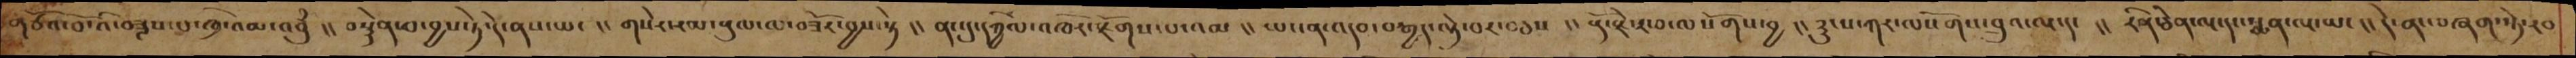གཙོའ་བོ་འི་བཟླས་པ་ཁྲི་འམ་འབུཾ །། བསྙེན་པ་བྱས་ཏེ་དེ་ནས་ཡང །། གསེར་རམ་དངུལ་ལ་བཟོར་བྱས་སྟེ །། ནང་དུ་དཀྱིལ་འཁོར་སྫོགས་པ་འམ །། ཡང་ན་འདབ་བརྒྱད་ལྟེ་བར་བཅས །། རྡོ་རྗེ་ར་བ་ལསོགས་བྱ །། ཟུངས་ཀར་ལསོགས་བྲུའ་ལྔ་དང །། རིན་ཅེན་ལྔ་དང་སྨན་ལྔ་ཡང །། དེ་ནང་བཞག་སྟེ་རབ
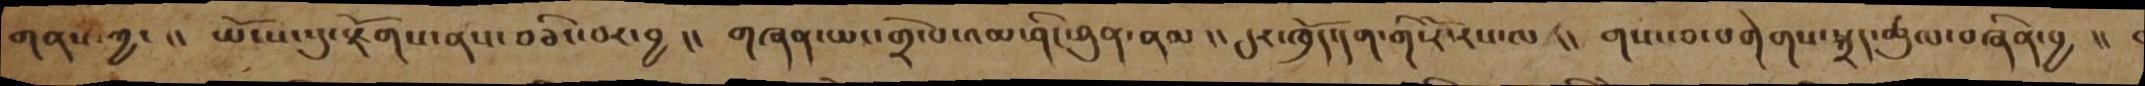གནས་ཀྱང །། ཡོངས་སུ་སྫོགས་ནས་བཅིང་བར་བྱ །། གཞན་ཡང་གྲོལ་འམ་ཤིང་ཐུན་ནམ །། དུར་ཁྲོད་དག་གི་རོ་རས་ལ །། གསང་བ་བགེགས་སྐྲད་ཚུལ་བཞིན་བྱ །།
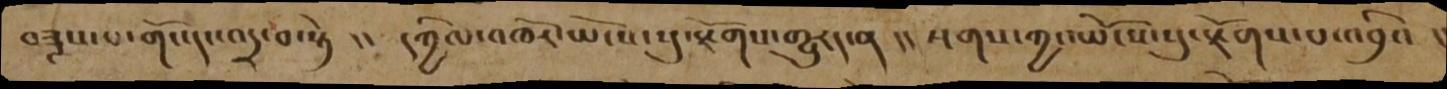བཟླས་པ་གོང་དང་འདྲ་བ་སྟེ། །། དཀྱིལ་འཁོར་ཡོངས་སུ་སྫོགས་གྱུརད་ན །། སྔགས་ཀྱང་ཡོངས་སུ་སྫོགས་པ་འབྲིའ  །
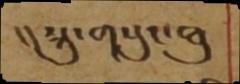།། སྐུ་གསུང་ཐུ
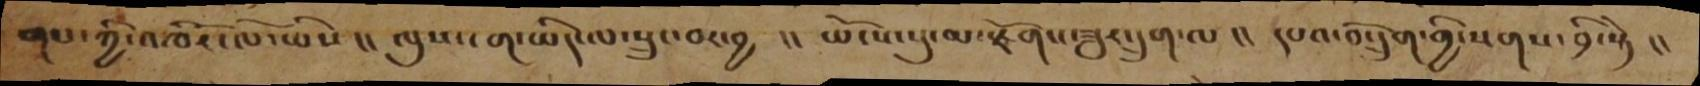གས་ཀྱི་འཁོར་ལོ་ཡིས །། ལུས་ངག་ཡིད་ལ་སྲུང་བར་བྱ  །།  ཡོངས་སུ་མ་རྫོགས་ཟུར་དྲུག་ལ །། དཔའ་བོ་དྲུག་གྱི་སགས་བྲི་སྟེ །།
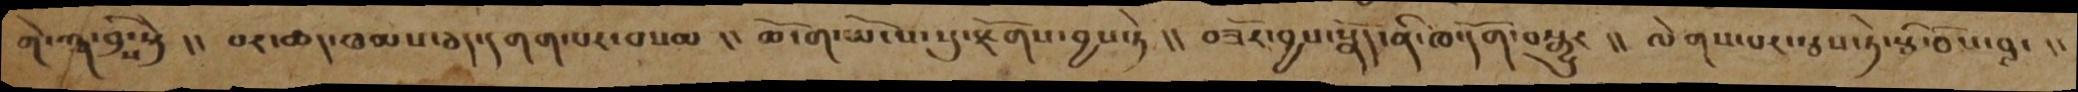གེ་ཀྵ་བྲིས་སྟེ།། བར་ཆད་ཐམས་ཅད་དགག་པར་བསམ།། ཆོ་ག་ཡོངས་སུ་རྫོགས་བྱས་ཏེ།། བཟོར་བྱས་སྣོད་ནི་ཁ་དོག་བསྒྱུར།། ལེགས་པར་སྦས་ཏེ་སྤི་བོས་བླང།།
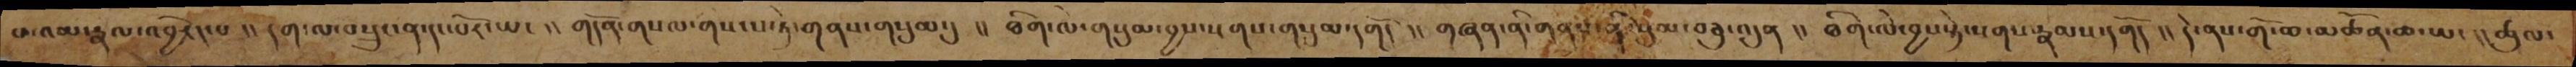པ་འམ་རྣལ་འབྱོརད་པ།།དག་ལ་བསྲུང་ན་དང་པོར་ཡང།།། གདོན་གསལ་གསངས་ཏེ་གནས་གསུམ་དུ།། ཐིག་ལེ་གསུམ་བྱས་སྔགས་གསུམ་དགོད།། གཞན་ནི་གནས་ནི་སུམ་བཅུ་བདུན།། ཐིག་ལེ་བྱས་སྟེ་སྔགས་རྣམས་དག།། དེ་ནས་གོ་ཆ་མཚོན་ཆ་ཡང།། ཚུལ་
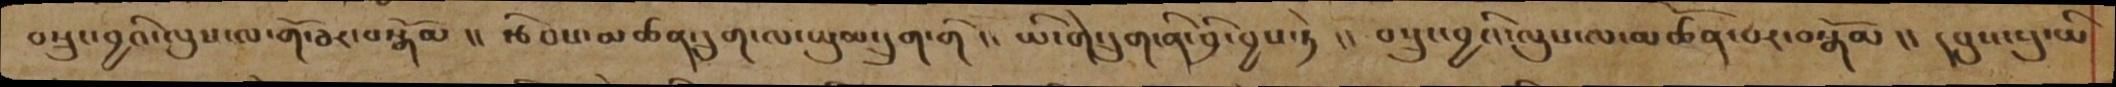བསྲུང་བྱའི་ལུས་ལ་གོ་བར་བསྒོམ །། རྩིབས་མཚན་དྲུག་ལ་ཡུམ་དྲུག་གོ །། ཡི་གེ་དྲུག་ནི་བྲི་བྱས་ཏེ །། བསྲུང་བྱའི་ལུས་ལ་མཚོན་པར་བསྒོམ །། དབུས་སུ་ཡི
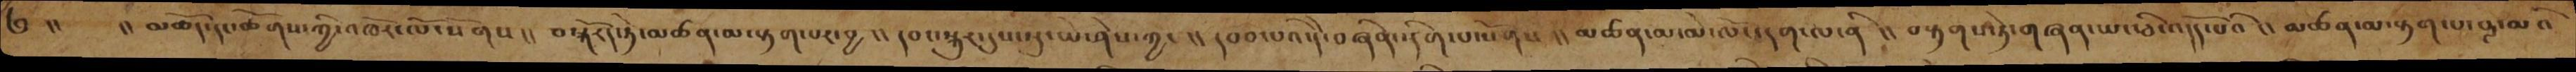༅།།   །།མཆོད་དང་ཚོགས་ཀྱི་འཁོར་ལོ་སོགས །། བསྐོརད་ཏེ་མཚན་མ་རྟག་པར་བྱ །།དབང་སྐུར་དུས་སུ་ཡེ་ཤེས་ཀྱང །།དབབ་པའི་དེ་བཞིན་རིག་པ་སོགས །། མཚན་མ་མེ་ལོང་དག་ལ་ནི །། བརྟགས་ཏེ་གཞན་ཡང་ཅི་འདོད་པའི།། མཚན་མ་རྟག་པ་སྔ་མའོ
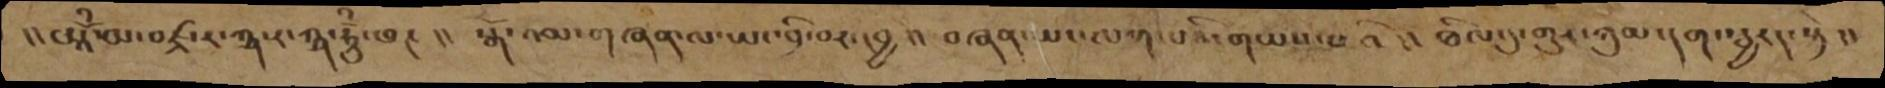།།ཨཱོཾ་ཨ་བཛྲ་ར་ཀྵ་ར་ཀྵ་ཧཱུྃ་ཕཊ།། སྒོ་འམ་གཞན་ལ་ཡང་བྲི་བར་བྱ།། བཞན་ཡང་ལག་པའི་གཡས་པའི།། ཐིལ་དུ་གུར་ཀུམ་དག་སྦྱརད་སྟེ།།
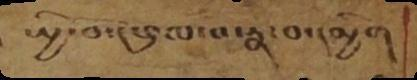སྤྱི་བོ་།ཕྲལ་བ་རྣ་བ་དམྱིག
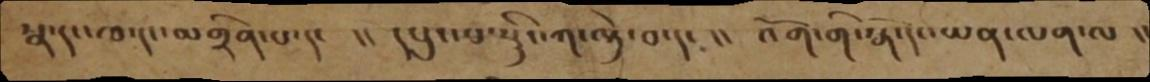སྣ་དང་ཁ་དང་མགྲིན་པ་དང  །།  དཔུང་པ་སྙིང་ཀ་ལྟེ་བ་དང་ །།  འོག་གི་སྒོ་དང་ཡན་ལག་ལ  །།
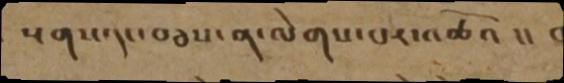སྔགས་དང་བཅས་ན་ལེགས་པར་འཚོའ   །།
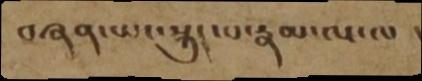བཞན་ཡང་སྐུད་པ་རྣམ་ལ་ལ   །
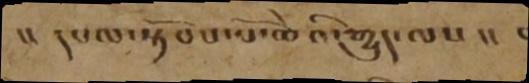།།    དཔལ་སྟོབས་པོ་ཆེའི་རྒྱུད་ལས །།    །
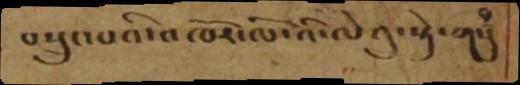བསྲུང་པའི་འཁོར་ལོ་འི་ལེའུ་སྟེ་གསུཾ
